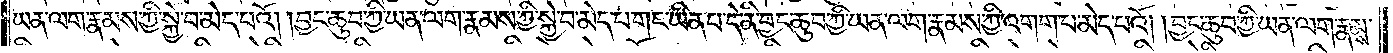ཡན་ལག་རྣམས་ཀྱི་སྐྱེ་བ་མེད་པའོ། །བྱང་ཆུབ་ཀྱི་ཡན་ལག་རྣམས་ཀྱི་སྐྱེ་བ་མེད་པ་གང་ཡིན་པ་དེ་ནི་བྱང་ཆུབ་ཀྱི་ཡན་ལག་རྣམས་ཀྱི་འགག་པ་མེད་པའོ། །བྱང་ཆུབ་ཀྱི་ཡན་ལག་རྣམས་
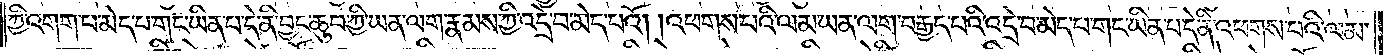ཀྱི་འགག་པ་མེད་པ་གང་ཡིན་པ་དེ་ནི་བྱང་ཆུབ་ཀྱི་ཡན་ལག་རྣམས་ཀྱི་འདྲེ་བ་མེད་པའོ། །འཕགས་པའི་ལམ་ཡན་ལག་བརྒྱད་པའི་འདྲེ་བ་མེད་པ་གང་ཡིན་པ་དེ་ནི་འཕགས་པའི་ལམ་
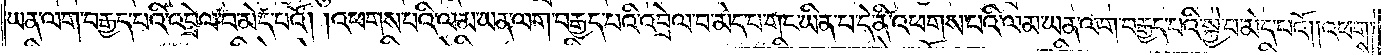ཡན་ལག་བརྒྱད་པའི་འབྲེལ་བ་མེད་པའོ། །འཕགས་པའི་ལམ་ཡན་ལག་བརྒྱད་པའི་འབྲེལ་བ་མེད་པ་གང་ཡིན་པ་དེ་ནི་འཕགས་པའི་ལམ་ཡན་ལག་བརྒྱད་པའི་སྐྱེ་བ་མེད་པའོ། །འཕགས་
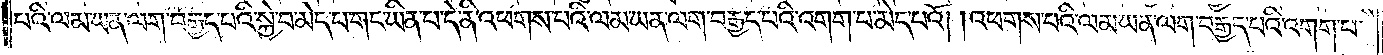པའི་ལམ་ཡན་ལག་བརྒྱད་པའི་སྐྱེ་བ་མེད་པ་གང་ཡིན་པ་དེ་ནི་འཕགས་པའི་ལམ་ཡན་ལག་བརྒྱད་པའི་འགག་པ་མེད་པའོ། །འཕགས་པའི་ལམ་ཡན་ལག་བརྒྱད་པའི་འགག་པ་
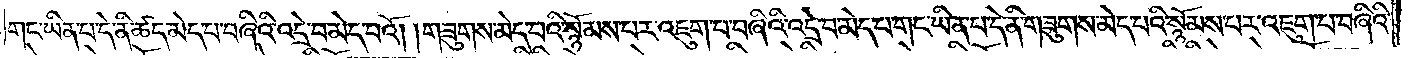གང་ཡིན་པ་དེ་ནི་ཚད་མེད་པ་བཞིའི་འདྲེ་བ་མེད་པའོ། །གཟུགས་མེད་པའི་སྙོམས་པར་འཇུག་པ་བཞིའི་འདྲེ་བ་མེད་པ་གང་ཡིན་པ་དེ་ནི་གཟུགས་མེད་པའི་སྙོམས་པར་འཇུག་པ་བཞིའི་
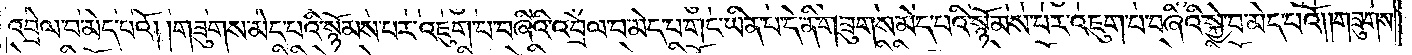འབྲེལ་བ་མེད་པའོ། །གཟུགས་མེད་པའི་སྙོམས་པར་འཇུག་པ་བཞིའི་འབྲེལ་བ་མེད་པ་གང་ཡིན་པ་དེ་ནི་གཟུགས་མེད་པའི་སྙོམས་པར་འཇུག་པ་བཞིའི་སྐྱེ་བ་མེད་པའོ། །གཟུགས་
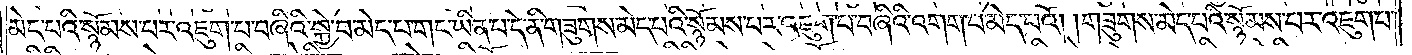མེད་པའི་སྙོམས་པར་འཇུག་པ་བཞིའི་སྐྱེ་བ་མེད་པ་གང་ཡིན་པ་དེ་ནི་གཟུགས་མེད་པའི་སྙོམས་པར་འཇུག་པ་བཞིའི་འགག་པ་མེད་པའོ། །གཟུགས་མེད་པའི་སྙོམས་པར་འཇུག་པ་
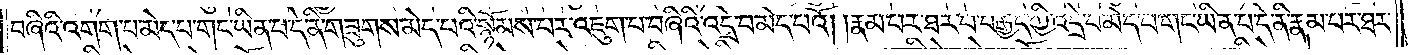བཞིའི་འགག་པ་མེད་པ་གང་ཡིན་པ་དེ་ནི་གཟུགས་མེད་པའི་སྙོམས་པར་འཇུག་པ་བཞིའི་འདྲེ་བ་མེད་པའོ། །རྣམ་པར་ཐར་པ་བརྒྱད་ཀྱི་འདྲེ་བ་མེད་པ་གང་ཡིན་པ་དེ་ནི་རྣམ་པར་ཐར་
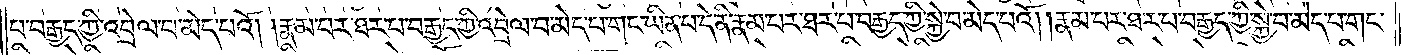པ་བརྒྱད་ཀྱི་འབྲེལ་པ་མེད་པའོ། །རྣམ་པར་ཐར་པ་བརྒྱད་ཀྱི་འབྲེལ་བ་མེད་པ་གང་ཡིན་པ་དེ་ནི་རྣམ་པར་ཐར་པ་བརྒྱད་ཀྱི་སྐྱེ་བ་མེད་པའོ། །རྣམ་པར་ཐར་པ་བརྒྱད་ཀྱི་སྐྱེ་བ་མེད་པ་གང་
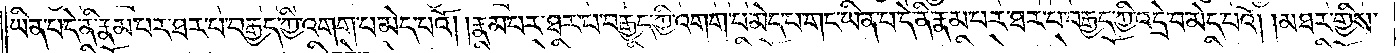ཡིན་པ་དེ་ནི་རྣམ་པར་ཐར་པ་བརྒྱད་ཀྱི་འགག་པ་མེད་པའོ། །རྣམ་པར་ཐར་པ་བརྒྱད་ཀྱི་འགག་པ་མེད་པ་གང་ཡིན་པ་དེ་ནི་རྣམ་པར་ཐར་པ་བརྒྱད་ཀྱི་འདྲེ་བ་མེད་པའོ། །མཐར་གྱིས་
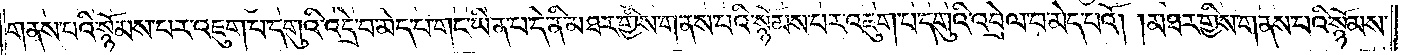གནས་པའི་སྙོམས་པར་འཇུག་པ་དགུའི་འདྲེ་བ་མེད་པ་གང་ཡིན་པ་དེ་ནི་མཐར་གྱིས་གནས་པའི་སྙོམས་པར་འཇུག་པ་དགུའི་འབྲེལ་པ་མེད་པའོ། །མཐར་གྱིས་གནས་པའི་སྙོམས་
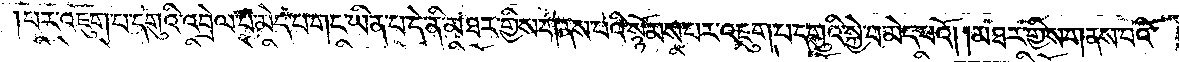པར་འཇུག་པ་དགུའི་འབྲེལ་པ་མེད་པ་གང་ཡིན་པ་དེ་ནི་མཐར་གྱིས་གནས་པའི་སྙོམས་པར་འཇུག་པ་དགུའི་སྐྱེ་བ་མེད་པའོ། །མཐར་གྱིས་གནས་པའི་
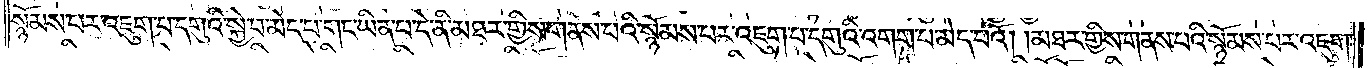སྙོམས་པར་འཇུག་པ་དགུའི་སྐྱེ་བ་མེད་པ་གང་ཡིན་པ་དེ་ནི་མཐར་གྱིས་གནས་པའི་སྙོམས་པར་འཇུག་པ་དགུའི་འགག་པ་མེད་པའོ། །མཐར་གྱིས་གནས་པའི་སྙོམས་པར་འཇུག་
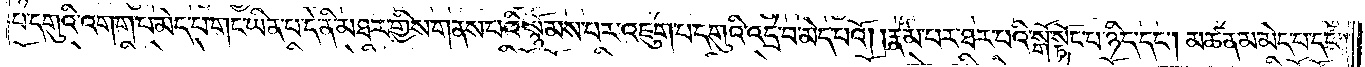པ་དགུའི་འགག་པ་མེད་པ་གང་ཡིན་པ་དེ་ནི་མཐར་གྱིས་གནས་པའི་སྙོམས་པར་འཇུག་པ་དགུའི་འདྲེ་བ་མེད་པའོ། །རྣམ་པར་ཐར་པའི་སྒོ་སྟོང་པ་ཉིད་དང༌། མཚན་མ་མེད་པ་དང༌།
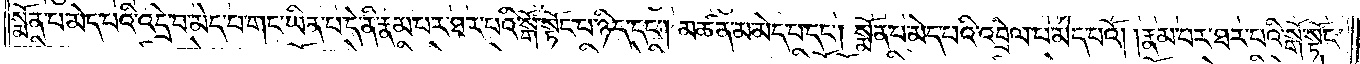སྨོན་པ་མེད་པའི་འདྲེ་བ་མེད་པ་གང་ཡིན་པ་དེ་ནི་རྣམ་པར་ཐར་པའི་སྒོ་སྟོང་པ་ཉིད་དང༌། མཚན་མ་མེད་པ་དང༌། སྨོན་པ་མེད་པའི་འབྲེལ་པ་མེད་པའོ། །རྣམ་པར་ཐར་པའི་སྒོ་སྟོང་
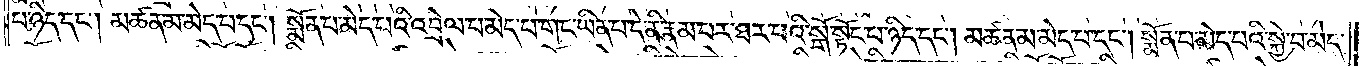པ་ཉིད་དང༌།མཚན་མ་མེད་པ་དང༌། སྨོན་པ་མེད་པའི་འབྲེལ་པ་མེད་པ་གང་ཡིན་པ་དེ་ནི་རྣམ་པར་ཐར་པའི་སྒོ་སྟོང་པ་ཉིད་དང༌། མཚན་མ་མེད་པ་དང༌། སྨོན་པ་མེད་པའི་སྐྱེ་བ་མེད་
